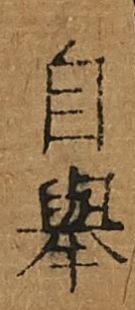自舉
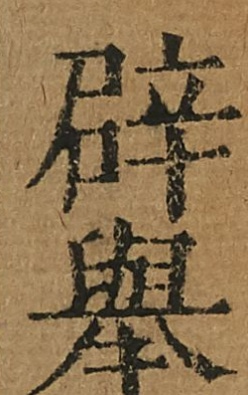辟舉
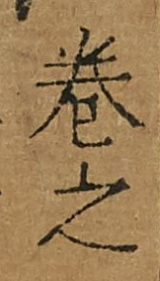卷之
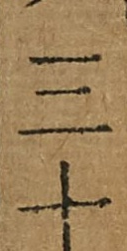三十
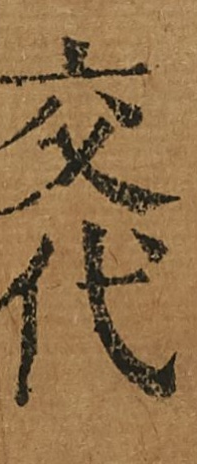交代
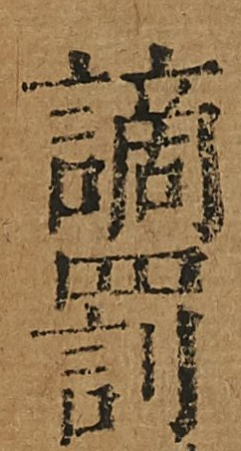謫伐
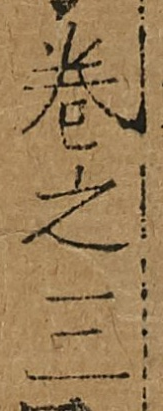卷之三
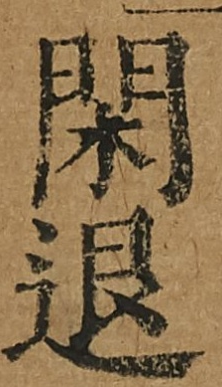閑退
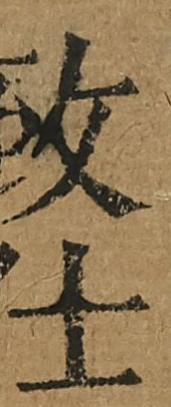致仕
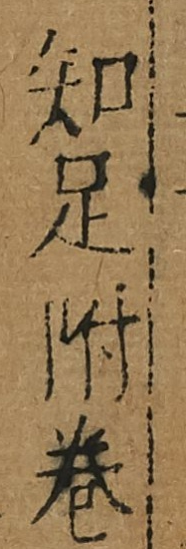知足附卷
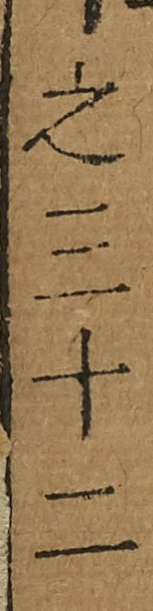之三十二
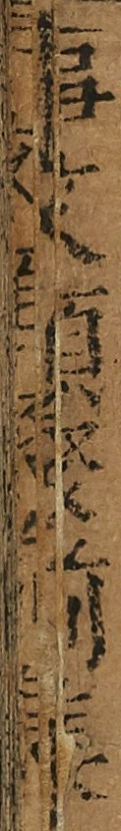事文類聚前集
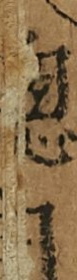總目
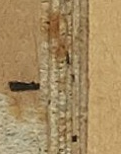二
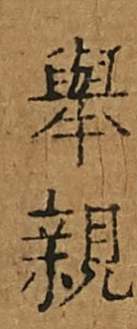舉親
